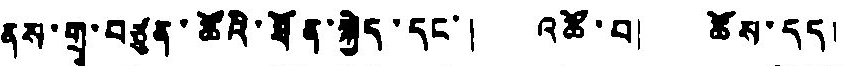ནས་གྲྭ་བཙུན་ཚོའི་ཐོན་སྐྱེད་དང་། འཚོ་བ། ཆོས་དད།
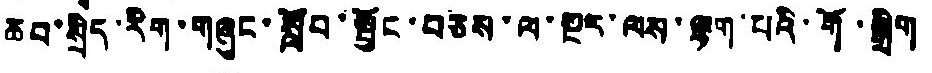ཆབ་སྲིད་རིག་གཞུང་སློབ་སྦྱོང་བཅས་ལ་སྔར་ལས་ལྷག་པའི་གོ་སྒྲིག
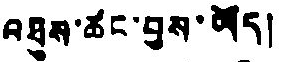འཐུས་ཚང་བྱས་ཡོད།
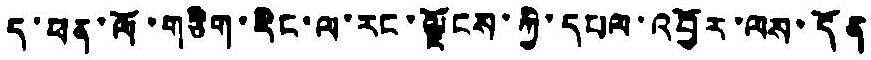ད་ཕན་ལོ་གཅིག་རིང་ལ་རང་ལྗོངས་ཀྱི་དཔལ་འབྱོར་ལས་དོན
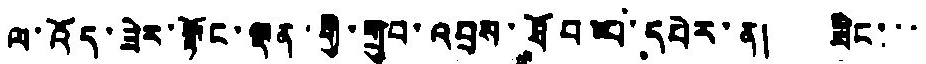ལ་འོད་ཟེར་སྟོང་ལྡན་གྱི་གྲུབ་འབྲས་ཐོབ་པ་དཔེར་ན། ཟིང་་་
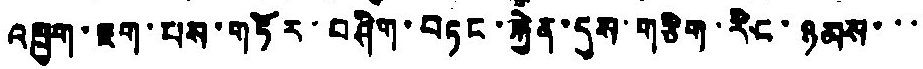འཁྲུག་ཇག་པས་གཏོར་བཤིག་བཏང་རྐྱེན་དུས་གཅིག་རིང་ཉམས་་་
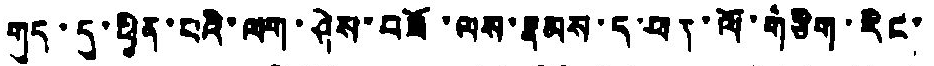གུད་དུ་ཕྱིན་པའི་ལག་ཤེས་བཟོ་ལས་རྣམས་ད་ཕན་ལོ་གིཅིག་རིང་
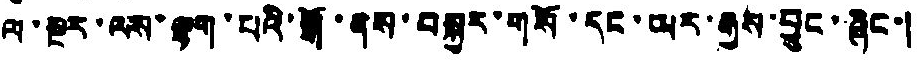ལ་སྔར་ལས་ལྟག་པའི་སྒོ་ནས་བསྐྱར་གསོ་དང་ཡར་རྒྱས་བྱུང་ཞིང་།
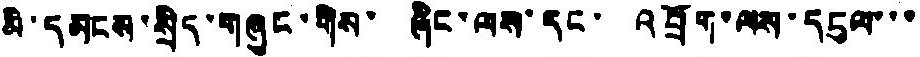མི་དམངས་སྲིད་གཞུང་གིས་ ཞིང་ལས་དང་ འབྲོག་ལས་དངུལ་་་
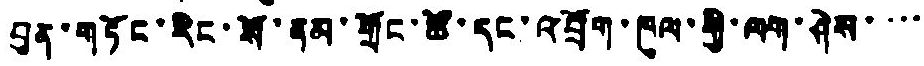བུན་གཏོང་རིང་སོ་ནམ་གྲོང་ཚོ་དང་འབྲོག་ཁུལ་གྱི་ལག་ཤེས་་་་
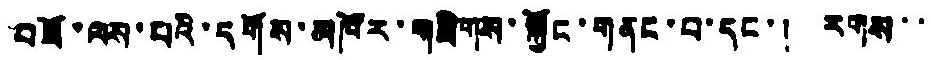བཟོ་ལས་པའི་དགོས་མཁོར་གཟིགས་སྐྱོང་གནང་བ་དང་། རགས་་
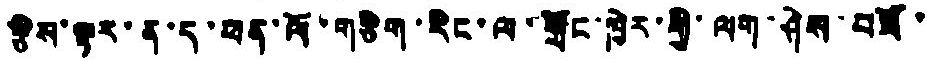རྩིས་ལྟར་ན་ད་ཕན་ལོ་གཅིག་རིང་ལ་གྲོང་ཁྱེར་གྱི་ལག་ཤེས་བཟོ་
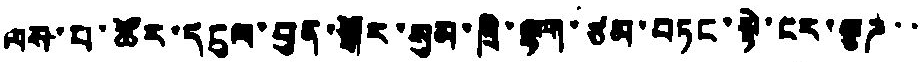ལས་པ་ཚོར་དངུལ་བྱན་སྒོར་སུམ་ཁྲི་ལྷག་ཙམ་བཏང་སྟེ་ངར་རྩཌ་་
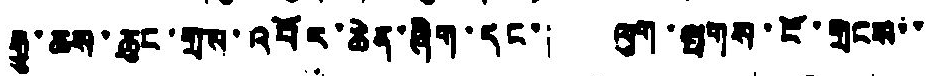རྒྱུ་ཆས་ཆུང་གྲས་འབོར་ཆེན་ཞིག་དང་། ལུག་ལྤགས་ངོ་གྲངས་་
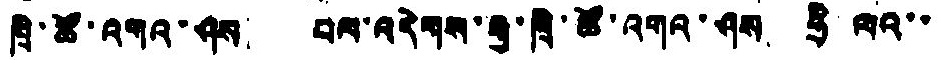ཁྲི་ཚོ་འགའ་ཤས། བལ་འདེགས་རྒྱ་ཁྲི་ཚོ་འགའ་ཤས ཧྲི ལའ་་
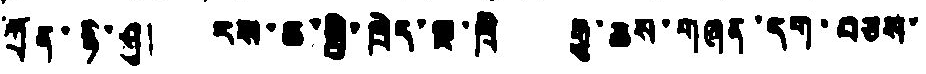ཀྲན་ཉི་ཤུ། རས་ཆ་སྤྱི་ཁྲིད་ལྔ་ཁྲི རྒྱུ་ཆས་གཞན་དག་བཅས་
